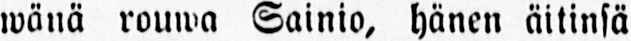wänä rouwa Sainio, hänen äitinsä
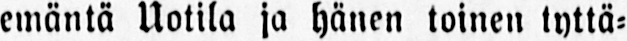emäntä Uotila ja hänen toinen tyttä-
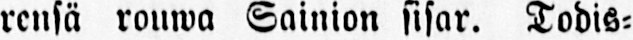rensä rouwa Sainion sisar. Todis-
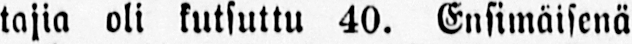tajia oli kutsuttu 40. Ensimäisenä
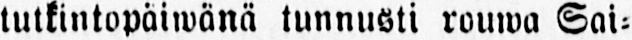tutkintopäiwänä tunnusti rouwa Sai-
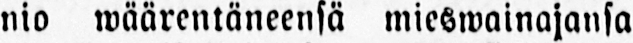nio wäärentäneensä mieswainajansa
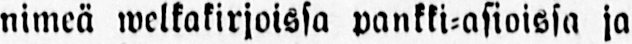nimeä welkakirjoissa pankki-asioissa ja
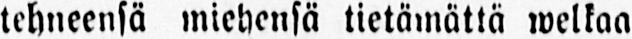tehneensä miehensä tietämättä welkaa
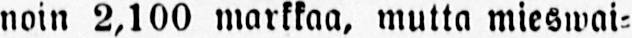noin 2,100 markkaa, mutta mieswai-
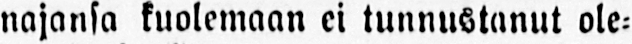najansa kuolemaan ci tunnustanut ole-
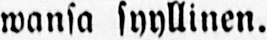wansa syyllinen.
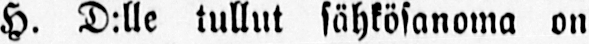H. D:lle tullut sähkösanoma on
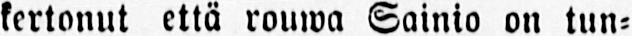kertonut että rouwa Sainio on tun-
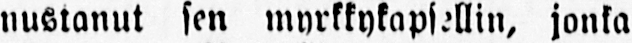nustanut sen myrkkykapsellin, jonka
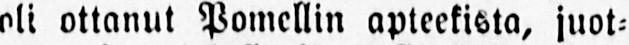oli ottanut Pomellin apteekista, juot-
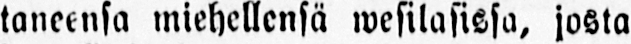taneensa miehellensä wesilasissa, josta
